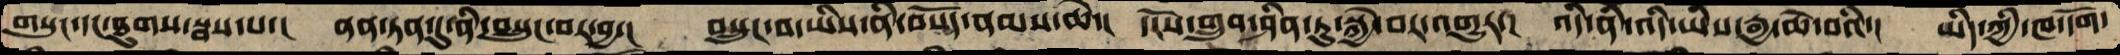གསུང་དང་ཐུགས་སྦས་པ་།  ནན་ཏན་དུ་ནི་བསྲུང་བར་བྱ་།  བསྲུང་བ་ཡིས་ནི་བསོད་ནམས་ཆེ་།  དངོས་གྲུབ་ཤིན་ཏུ་སྐྱེ་བར་འགྱུར་།  འདི་ནི་འདི་ཡིས་རྒྱ་ཆེ་བའི་།  ཡིད་ཀྱི་ཁ་དོག་
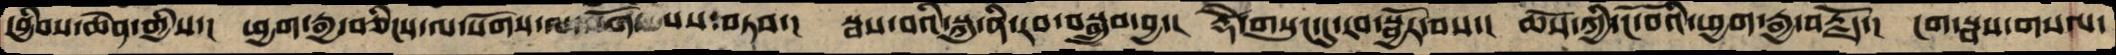དབྱིབས་ཆེན་གྱིས་།  ཕྱག་རྒྱ་བཅིངས་ལ་སོགས་ལ་སོགས་པས་བཏབ་།  སྦས་བའིསྐུ་ནི་རབ་བསྒྲུབ་བྱ་།  རྡོེ་གསུང་དུ་རབ་སྦྱོར་བས་།  ཆོས་ཀྱི་ངོ་བོའི་ཕྱག་རྒྱ་བརྗོད་།  ངག་སྦས་གསལ་
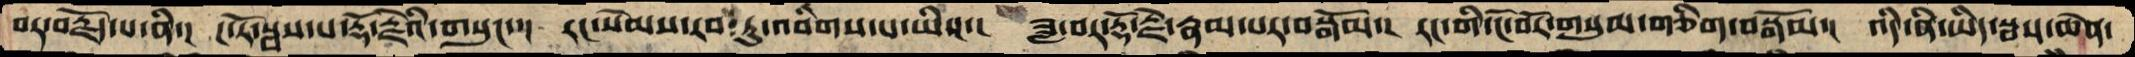བར་བརྗོད་པ་ནི་།  ང་རོ་སྦས་པ་རྡོ་རྗེའི་གསུངས་།  རང་སེམས་རབ་ཏུ་འབིགས་པ་ཡིས་།  ཟླ་བར་རྡོ་རྗེ་རྣམ་པར་བསྒོམ་།  རང་གི་ངོ་བོར་གསུམ་གཅིག་བསྒོམ་།  འདི་ནི་ཡིད་སྦས་ཆེན་
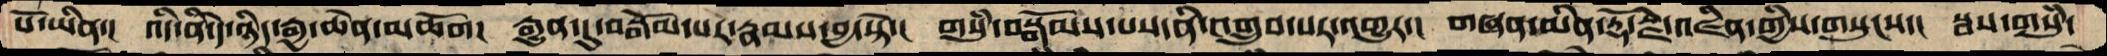པོ་ཡིན་།  འདི་ནི་དེ་ཉིད་རྒྱ་ཆེན་མཆོག།  རྒྱུན་དུ་བསྒོམ་པར་རྣམས་བྱ་སྟེ་།  གསུཾ་བསྒོམས་པས་ནི་འགྲུབ་པར་འགྱུར་།  གཞན་མིན་རྡོ་རྗེ་འཛིན་གྱིས་གསུངས་།  སྦས་གསུཾ
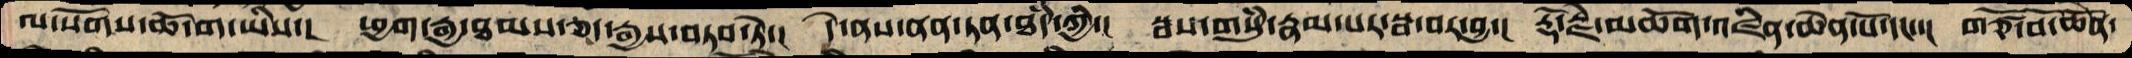ལ་སོགས་ཆོ་ག་ཡིས་།  ཕྱག་རྒྱ་ཐམས་ཅད་རྒྱས་བཏབ་ཏེ་།  དེ་ནས་ནན་ཏན་ཐཾད་ཀྱི་།  སྦས་གསུཾ་་རྣམ་པར་སྦ་བར་བྱ་།  རྡོ་རྗེ་མཆོག་འཛིན་ཆེན་པོ་དང་་།  གཙོ་བོ་ཆེན་
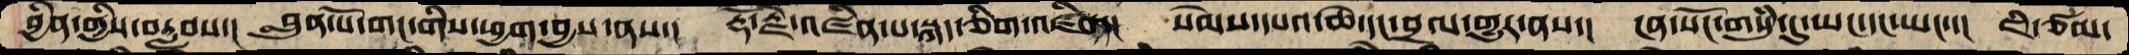བྱིན་གྱིས་བརླབས་།  བླུན་པོ་གང་གིས་ཕྱག་བྱས་ནས་།  རྡོ་རྗེ་འཛིན་པ་སྐད་ཅིག་འཛིན་།  སེམས་དཔའ་ཆེ་དང་བྲལ་གྱུར་ནས་། ངན་སོང་གསུཾ་དུ་ཡང་དང་ཡང་་།  ཇི་ཙམ་
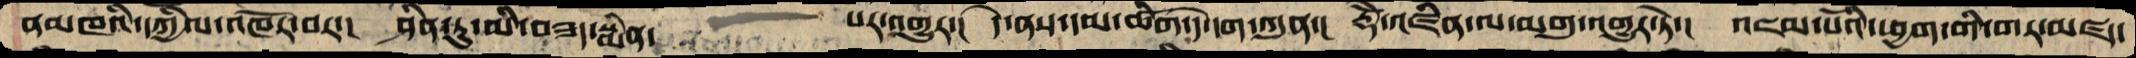ནམཁའི་དཀྱིལ་འཁོར་བར་།  ཤིན་ཏུ་མི་བཟད་སྨིན་     པར་འགྱུར་།  དེ་ནས་དམ་ཚིག་དེ་དག་ཀུན་།  རྡོེ་འཛིན་ལ་མགུ་འགྱུར་ཏེ་།  འཇམ་པོའི་ཕྱག་གི་གར་མཛད་
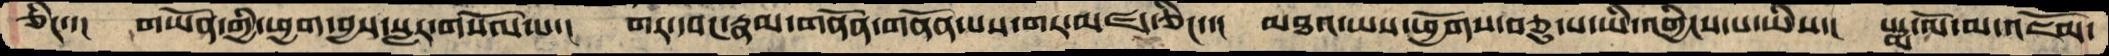ཅིང་་།  གཡོན་གྱི་ཕྱག་བྱས་སླར་གསོལ་པ་།  གར་དབང་རྣམ་གནོན་གནོན་པས་གར་མཛད་ཅིང་་།  མཐའ་ཡས་ཕྱོགས་བཅུ་པ་ཡི་འགྱིངས་པ་ཡིས་།  པདྨ་ལོ་མ་འཇོམ་
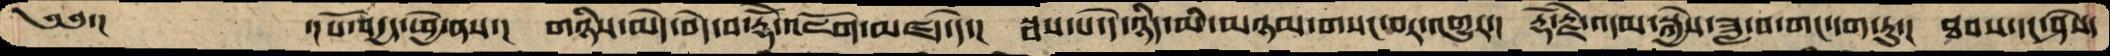༄༅་།     ་།པོ་བདྱད་ཕྱེ་ནས་།  གཉིས་མེད་བདེ་བ་རྡོེ་འཇོག་མཛད་དེ་།  སྦས་པ་དེ་ཉིད་མི་མཉམ་གསང་བར་འགྱུར་།  རྡོ་རྗེ་འདམ་སྐྱེས་ཟླ་བ་གང་དག་ཏུ་།  ཐབས་དང་ཤེས་
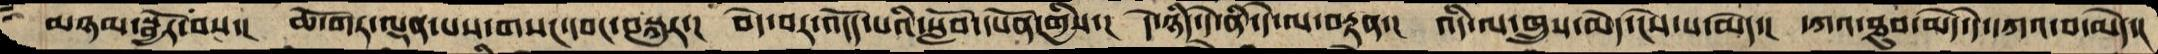མཉམ་སྦྱོར་བས་།  ཆོ་གར་ལྡན་པས་གསང་དབང་བསྐུར་།  བདེ་བར་འདོད་པའི་སློབ་དཔོན་གྱིས་།  དེ་ཉིད་དེ་ནི་དེ་ལ་བརྟན་།  འདི་ལ་ཁྲུས་མེད་ངེས་པ་མེད་།  དཀའ་ཐུབ་མེད་དེ་དཀའ་བ་མེད་།
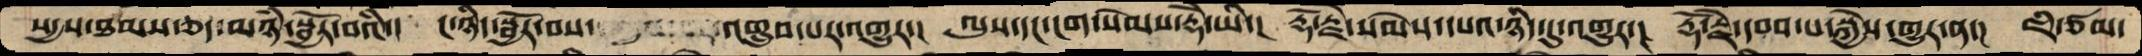སདྱས་ཐམས་ཅད་མཉཾ་སྦྱོར་བའི་།  ང་ཉིད་སྦྱོར་བས་   འགྲུབ་པར་འགྱུར་།  ལུས་དང་ངག་སེམས་རྡོེ་ཡི་།  རྡོ་རྗེ་སེམས་དཔའ་ཉིད་དུ་འགྱུར་།  རྡོ་རྗེ་དབབ་པ་སྐྱེས་གྱུར་ན་།  ཇི་ཙམ་
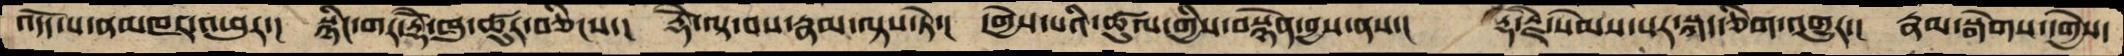འདོད་པ་ནམཁར་འཕུར་།  སྙིང་གར་རྡོེ་ཁུ་ཚུར་བཅིངས་།  རྡོེ་ལྟ་བས་རྣམ་ལྟས་ཏེ་།  དགྱེས་པའི་ཚུལ་གྱིས་བསྙེན་བྱས་ནས་།  རྡོ་རྗེ་སེམས་པར་སྐད་ཅིག་འགྱུར་།  རྣམ་སྒེགས་དགྱེས་
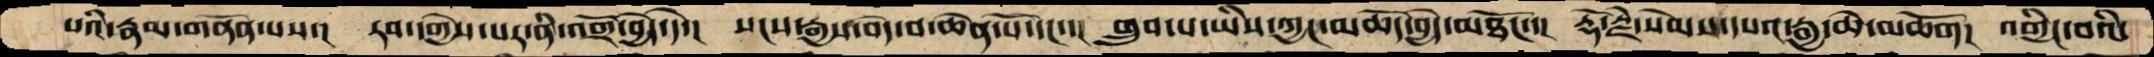པའི་རྣམ་གནོན་པས་།  རབ་དགྱེས་པར་ནི་འགྲོ་བྱེད་དེ་།  སངས་རྒྱས་བདེ་བ་ཆེན་པོ་དང་་།  གྲུབ་པ་ཡིས་ཀྱང་མཆོད་བྱེད་མཐོང་་།  རྡོ་རྗེ་སེམས་དཔའ་རྒྱ་ཆེ་མཆོག།  འགྱིང་བའི་
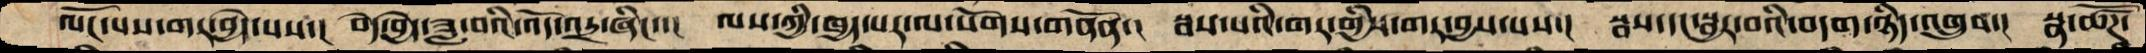ལོང་པས་གར་བྱེད་པས་།  བདེ་བྱེད་ཟླ་བའི་འོད་འདྲ་ཞིང་་།  ལས་ཀྱི་ཁྱད་པར་ལ་སོགས་གནོན་།  སྦས་པའི་གར་གྱིས་གར་བྱས་པས་།  སྦས་དང་སྦྱར་བའི་བདག་ཉིད་འགྲུབ་།  སྣ་ཚོཌ་
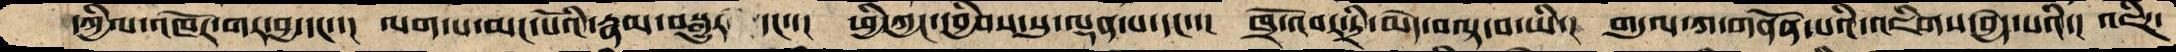དཀྱིལ་འཁོར་གར་བྱ་དང་་།  ལག་པ་མང་པོའི་རྣམ་བསྒྱུར་ དང་་།  ཕྱི་ཀྱང་དབྱིབས་སུ་ལྡན་པ་དང་་།  ཁྲོ་འབར་དྲི་མེད་བལྟ་བ་ཡི་།  གདུལ་ཀ་གནོན་པའི་འཇིགས་བྱེད་པའི་།  འཇིཌ་
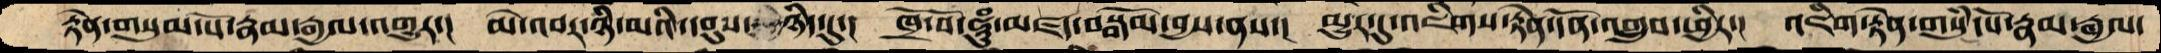རྟེན་གསུམ་པོ་རྣམ་རྒྱལ་འགྱུར་།  མེ་འབར་ཉི་མའི་དབུས་ ཉིད་དུ་།  ཁྲོ་བོ་ཧཱུཾ་མཛད་བསྒོམ་བྱས་ནས་།  མྱུར་དུ་འཇིགས་རྟེན་དོན་འགྲུབ་ཕྱིར་།  འཇིག་རྟེན་གསུཾ་པོ་རྣམ་རྒྱལ་
